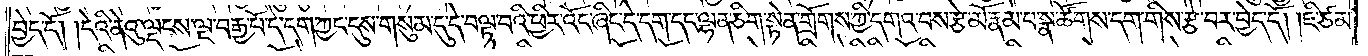བྱེད་དོ། །དེའི་ནེའུ་ལྡངས་ལྔ་བརྒྱ་པོ་དེ་དག་ཀྱང་དུས་གསུམ་དུ་དེ་བལྟ་བའི་ཕྱིར་འོང་ཞིང་དེ་དག་དང་ལྷན་ཅིག་སྟེན་གྲོགས་ཀྱི་དགའ་བས་རྩེ་མོ་རྣམ་པ་སྣ་ཚོགས་དག་གིས་རྩེ་བར་བྱེད་དོ། །ཇི་ཙམ་
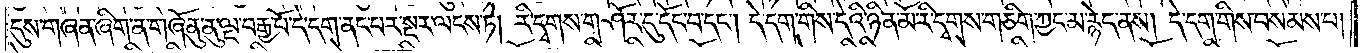དུས་གཞན་ཞིག་ན་གཞོན་ནུ་ལྔ་བརྒྱ་པོ་དེ་དག་ནང་པར་སྔར་ལངས་ཏེ། རི་དྭགས་གཤོར་དུ་དོང་བ་དང༌། དེ་དག་གིས་དེའི་ཉིན་མོ་རི་དྭགས་གཅིག་ཀྱང་མ་རྙེད་ནས། དེ་དག་གིས་བསམས་པ།
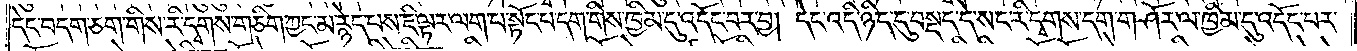དེང་བདག་ཅག་གིས་རི་དྭགས་གཅིག་ཀྱང་མ་རྙེད་པས་ཇི་ལྟར་ལག་པ་སྟོང་པ་དག་གིས་ཁྱིམ་དུ་འདོང་བར་བྱ། དེང་འདི་ཉིད་དུ་བསྡད་དེ་སང་རི་དྭགས་དག་གཤོར་ལ་ཁྱིམ་དུ་འདོང་པར་
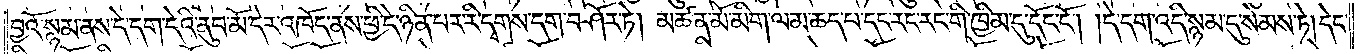བྱའོ་སྙམ་ནས་དེ་དག་དེའི་ནུབ་མོ་དེར་འཁོད་ནས་ཕྱི་དེ་ཉིན་པར་རི་དྭགས་དག་བཤོར་ཏེ། མཚན་མོ་མིག་ལམ་ཆད་པ་དང་རང་རང་གི་ཁྱིམ་དུ་དོང་ངོ༌། །དེ་དག་འདི་སྙམ་དུ་སེམས་ཏེ། དེང་
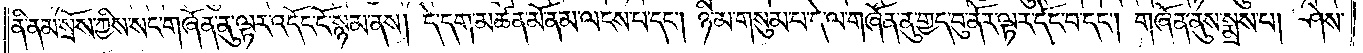ནི་ནམ་སྲོས་ཀྱིས་སང་གཞོན་ནུ་ལྟར་འདོང་ངོ་སྙམ་ནས། དེ་དག་མཚན་མོ་ནམ་ལངས་པ་དང༌། ཉི་མ་གསུམ་པ་དེ་ལ་གཞོན་ནུ་གྱད་བུ་ནོར་ལྟར་དོང་བ་དང༌། གཞོན་ནུས་སྨྲས་པ། ཤེས་
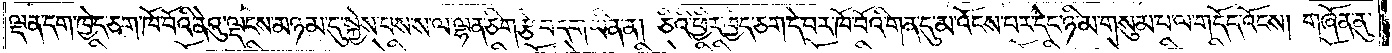ལྡན་དག་ཁྱེད་ཅག་ཁོ་བོའི་ནེའུ་ལྡངས་མཉམ་དུ་སྐྱེས་པས་ས་ལ་ལྷན་ཅིག་རྩེ་བ་དག་ཡིན་ན། ཅིའི་ཕྱིར་ཁྱེད་ཅག་དེ་བར་ཁོ་བོའི་གན་དུ་མ་འོངས་པར་དེང་ཉི་མ་གསུམ་པ་ལ་གདོད་འོངས། གཞོན་ནུ་
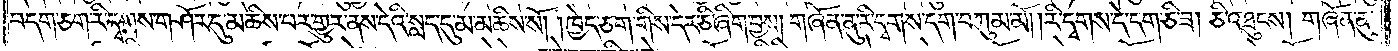བདག་ཅག་རི་དྭགས་གཤོར་དུ་མཆིས་པར་གྱུར་ནས་དེའི་སླད་དུ་མ་མཆིས་སོ། །ཁྱེད་ཅག་གིས་དེར་ཅི་ཞིག་བྱས། གཞོན་ནུ་རི་དྭགས་དག་བཀུམ་མོ། །རི་དྭགས་དེ་དག་ཅི་ཟ། ཅི་འཐུངས། གཞོན་ནུ་
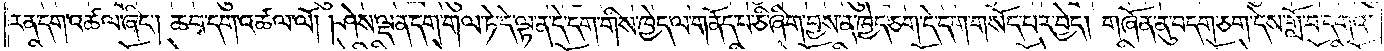རན་དག་འཚལ་ཞིང༌། ཆབ་དག་འཚལ་ལོ། །ཤེས་ལྡན་དག་གལ་ཏེ་དེ་ལྟ་ན་དེ་དག་གིས་ཁྱེད་ལ་གནོད་པ་ཅི་ཞིག་བྱས་ན་ཁྱེད་ཅག་དེ་དག་གསོད་པར་བྱེད། གཞོན་ནུ་བདག་ཅག་དེས་གློ་བ་དགའ་
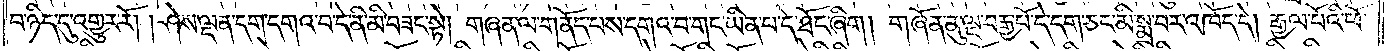བ་ཉིད་དུ་འགྱུར་རོ། །ཤེས་ལྡན་དག་དགའ་བ་དེ་ནི་མི་བཟང་སྟེ། གཞན་ལ་གནོད་པས་དགའ་བ་གང་ཡིན་པ་དེ་ཐོང་ཞིག། གཞོན་ནུ་ལྔ་བརྒྱ་པོ་དེ་དག་ཅང་མི་སྨྲ་བར་འཁོད་དེ། རྒྱལ་པོའི་ཕོ་
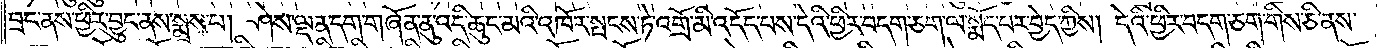བྲང་ནས་ཕྱིར་བྱུང་ནས་སྨྲས་པ། ཤེས་ལྡན་དག་གཞོན་ནུ་འདི་ཆུང་མའི་འཁོར་སྤངས་ཏེ་འགྲོ་མི་འདོད་པས་དེའི་ཕྱིར་བདག་ཅག་ལ་སྨོད་པར་བྱེད་ཀྱིས། དེའི་ཕྱིར་བདག་ཅག་གིས་ཅི་ནས་
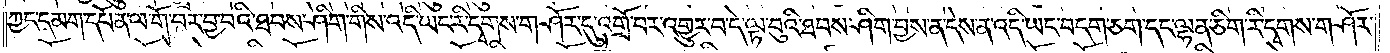ཀྱང་དམག་དཔོན་ལ་གོ་བར་བྱ་བའི་ཐབས་ཤིག་གིས་འདི་ཡང་རི་དྭགས་གཤོར་དུ་འགྲོ་བར་འགྱུར་བ་དེ་ལྟ་བུའི་ཐབས་ཤིག་བྱས་ན་དེས་ན་འདི་ཡང་བདག་ཅག་དང་ལྷན་ཅིག་རི་དྭགས་གཤོར་
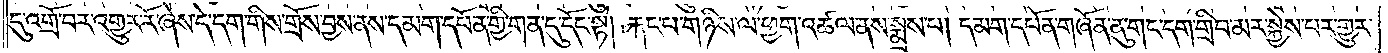དུ་འགྲོ་བར་འགྱུར་རོ་ཞེས་དེ་དག་གིས་གྲོས་བྱས་ནས་དམག་དཔོན་གྱི་གན་དུ་དོང་སྟེ། རྐང་པ་གཉིས་ལ་ཕྱག་འཚལ་ནས་སྨྲས་པ། དམག་དཔོན་གཞོན་ནུ་གང་དག་གྲིབ་མར་སྐྱེས་པར་གྱུར་
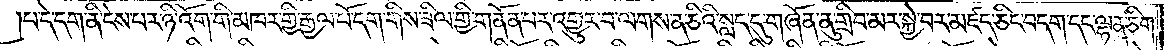པ་དེ་དག་ནི་ངེས་པར་ཉི་འོག་གི་མཁར་གྱི་རྒྱལ་པོ་དག་གིས་ཟིལ་གྱི་གནོན་པར་འགྱུར་བ་ལགས་ན་ཅིའི་སླད་དུ་གཞོན་ནུ་གྲིབ་མར་སྐྱེ་བར་མཛད་ཅིང་བདག་དང་ལྷན་ཅིག་
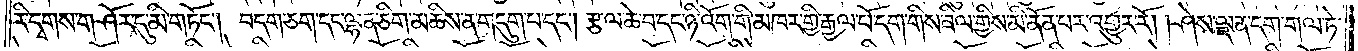རི་དྭགས་གཤོར་དུ་མི་གཏོང༌། བདག་ཅག་དང་ལྷན་ཅིག་མཆིས་ན་གདུག་པ་དང༌། རྩལ་ཆེ་བ་དང་ཉི་འོག་གི་མཁར་གྱི་རྒྱལ་པོ་དག་གིས་ཟིལ་གྱིས་མི་ནོན་པར་འགྱུར་རོ། །ཤེས་ལྡན་དག་གལ་ཏེ་
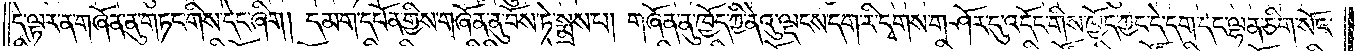དེ་ལྟར་ན་གཞོན་ནུ་གཏང་གིས་དེང་ཞིག། དམག་དཔོན་གྱིས་གཞོན་ནུ་བོས་ཏེ་སྨྲས་པ། གཞོན་ནུ་ཁྱོད་ཀྱི་ནེའུ་ལྡངས་དག་རི་དྭགས་གཤོར་དུ་འདོང་གིས་ཁྱོད་ཀྱང་དེ་དག་དང་ལྷན་ཅིག་སོང་
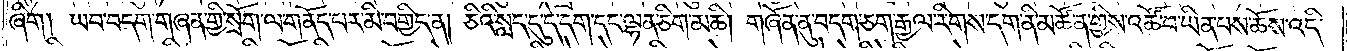ཞིག། ཡབ་བདག་གཞན་གྱི་སྲོག་ལ་གནོད་པར་མི་བགྱིད་ན། ཅིའི་སླད་དུ་དེ་དག་དང་ལྷན་ཅིག་མཆི། གཞོན་ནུ་བདག་ཅག་རྒྱལ་རིགས་དག་ནི་མཚོན་གྱིས་འཚོ་བ་ཡིན་པས་ཆོས་འདི་
